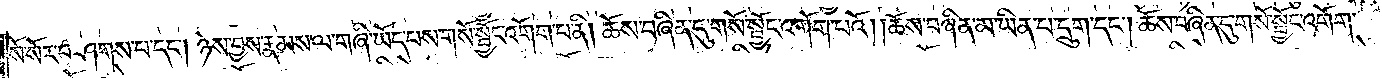སོ་སོར་བཤགས་པ་དང༌། ཉེས་བྱས་རྣམས་ལ་གཞི་ཡོད་པས་གསོ་སྦྱོང་འགོག་པ་ནི། ཆོས་བཞིན་དུ་གསོ་སྦྱོང་འགོག་པའོ། །ཆོས་བཞིན་མ་ཡིན་པ་དྲུག་དང༌། ཆོས་བཞིན་དུ་གསོ་སྦྱོང་འགོག་
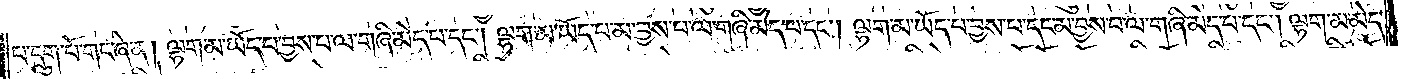པ་དྲུག་པོ་གང་ཞེ་ན། ལྷག་མ་ཡོད་པ་བྱས་པ་ལ་གཞི་མེད་པ་དང༌། ལྷག་མ་ཡོད་པ་མ་བྱས་པ་ལ་གཞི་མེད་པ་དང༌། ལྷག་མ་ཡོད་པ་བྱས་པ་དང་མ་བྱས་པ་ལ་གཞི་མེད་པ་དང༌། ལྷག་མ་མེད་
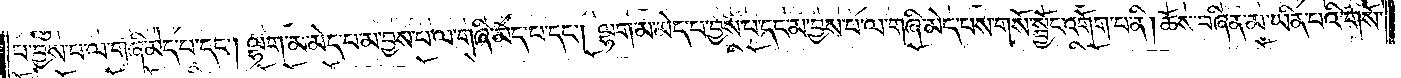པ་བྱས་པ་ལ་གཞི་མེད་པ་དང༌། ལྷག་མ་མེད་པ་མ་བྱས་པ་ལ་གཞི་མེད་པ་དང༌། ལྷག་མ་མེད་པ་བྱས་པ་དང་མ་བྱས་པ་ལ་གཞི་མེད་པས་གསོ་སྦྱོང་འགོག་པ་ནི། ཆོས་བཞིན་མ་ཡིན་པའི་གསོ་
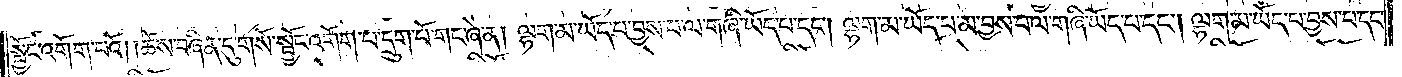སྦྱོང་འགོག་པའོ། །ཆོས་བཞིན་དུ་གསོ་སྦྱོང་འགོག་པ་དྲུག་པོ་གང་ཞེ་ན། ལྷག་མ་ཡོད་པ་བྱས་པ་ལ་གཞི་ཡོད་པ་དང༌། ལྷག་མ་ཡོད་པ་མ་བྱས་པ་ལ་གཞི་ཡོད་པ་དང༌། ལྷག་མ་ཡོད་པ་བྱས་པ་དང་
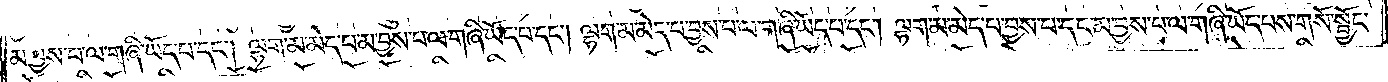མ་བྱས་པ་ལ་གཞི་ཡོད་པ་དང༌། ལྷག་མ་མེད་པ་མ་བྱས་པ་ལ་གཞི་ཡོད་པ་དང༌། ལྷག་མ་མེད་པ་བྱས་པ་ལ་གཞི་ཡོད་པ་དང༌། ལྷག་མ་མེད་པ་བྱས་པ་དང་མ་བྱས་པ་ལ་གཞི་ཡོད་པས་གསོ་སྦྱོང་
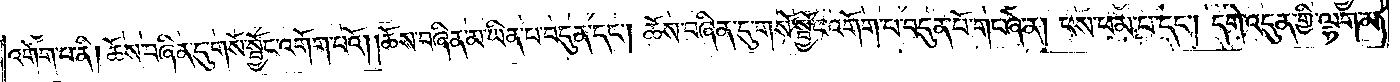འགོག་པ་ནི། ཆོས་བཞིན་དུ་གསོ་སྦྱོང་འགོག་པའོ། །ཆོས་བཞིན་མ་ཡིན་པ་བདུན་དང༌། ཆོས་བཞིན་དུ་གསོ་སྦྱོང་འགོག་པ་བདུན་པོ་གང་ཞེ་ན། ཕས་ཕམ་པ་དང༌། དགེ་འདུན་གྱི་ལྷག་མ་
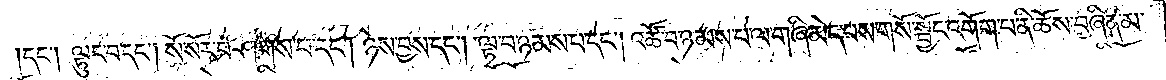དང༌། ལྟུང་བ་དང༌། སོ་སོར་བཤགས་པ་དང༌། ཉེས་བྱས་དང༌། ལྟ་བ་ཉམས་པ་དང༌། འཚོ་བ་ཉམས་པ་ལ་གཞི་མེད་པས་གསོ་སྦྱོང་འགོག་པ་ནི་ཆོས་བཞིན་མ་
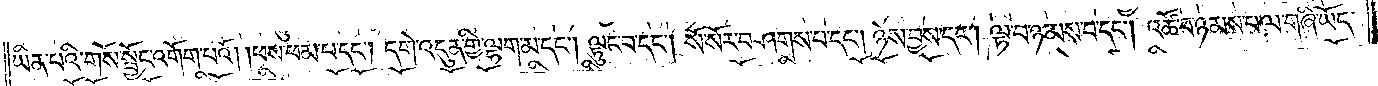ཡིན་པའི་གསོ་སྦྱོང་འགོག་པའོ། །ཕས་ཕམ་པ་དང༌། དགེ་འདུན་གྱི་ལྷག་མ་དང༌། ལྟུང་བ་དང༌། སོ་སོར་བཤགས་པ་དང༌། ཉེས་བྱས་དང༌། ལྟ་བ་ཉམས་པ་དང༌། འཚོ་བ་ཉམས་པ་ལ་གཞི་ཡོད་
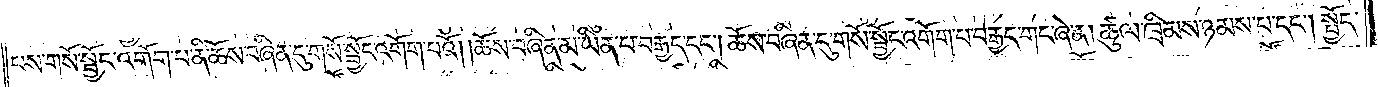པས་གསོ་སྦྱོང་འགོག་པ་ནི་ཆོས་བཞིན་དུ་གསོ་སྦྱོང་འགོག་པའོ། །ཆོས་བཞིན་མ་ཡིན་པ་བརྒྱད་དང༌། ཆོས་བཞིན་དུ་གསོ་སྦྱོང་འགོག་པ་བརྒྱད་གང་ཞེ་ན། ཚུལ་ཁྲིམས་ཉམས་པ་དང༌། སྤྱོད་
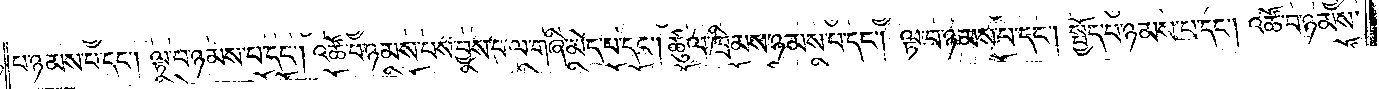པ་ཉམས་པ་དང༌། ལྟ་བ་ཉམས་པ་དང༌། འཚོ་བ་ཉམས་པས་བྱས་པ་ལ་གཞི་མེད་པ་དང༌། ཚུལ་ཁྲིམས་ཉམས་པ་དང༌། ལྟ་བ་ཉམས་པ་དང༌། སྤྱོད་པ་ཉམས་པ་དང༌། འཚོ་བ་ཉམས་
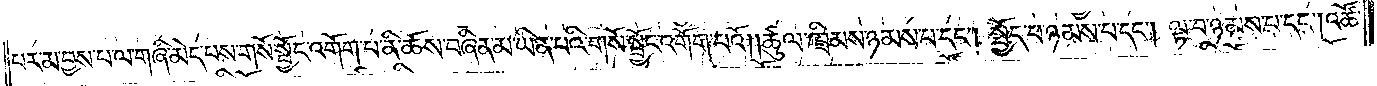པར་མ་བྱས་པ་ལ་གཞི་མེད་པས་གསོ་སྦྱོང་འགོག་པ་ནི་ཆོས་བཞིན་མ་ཡིན་པའི་གསོ་སྦྱོང་འགོག་པའོ། །ཚུལ་ཁྲིམས་ཉམས་པ་དང༌། སྤྱོད་པ་ཉམས་པ་དང༌། ལྟ་བ་ཉམས་པ་དང༌། འཚོ་
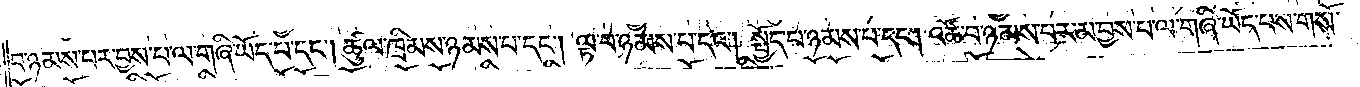བ་ཉམས་པར་བྱས་པ་ལ་གཞི་ཡོད་པ་དང༌། ཚུལ་ཁྲིམས་ཉམས་པ་དང༌། ལྟ་བ་ཉམས་པ་དང༌། སྤྱོད་པ་ཉམས་པ་དང༌། འཚོ་བ་ཉམས་པར་མ་བྱས་པ་ལ་གཞི་ཡོད་པས་གསོ་
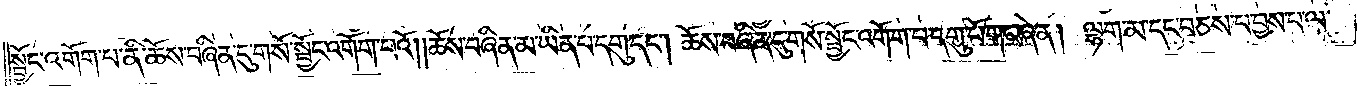སྦྱོང་འགོག་པ་ནི་ཆོས་བཞིན་དུ་གསོ་སྦྱོང་འགོག་བའོ། །ཆོས་བཞིན་མ་ཡིན་པ་དགུ་དང༌། ཆོས་བཞིན་དུ་གསོ་སྦྱོང་འགོག་པ་དགུ་པོ་གང་ཞེ་ན། ལྷག་མ་དང་བཅས་པ་བྱས་པ་ལ་
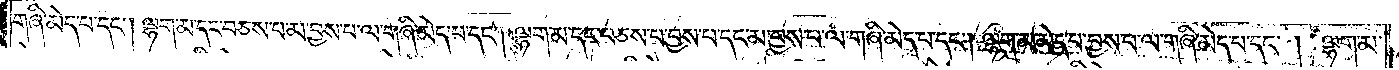གཞི་མེད་པ་དང༌། ལྷག་མ་དང་བཅས་པ་མ་བྱས་པ་ལ་གཞི་མེད་པ་དང༌། ལྷག་མ་དང་བཅས་པ་བྱས་པ་དང་མ་བྱས་པ་ལ་གཞི་མེད་པ་དང༌། ལྷག་མ་མེད་པ་བྱས་པ་ལ་གཞི་མེད་པ་དང༌། ལྷག་མ་
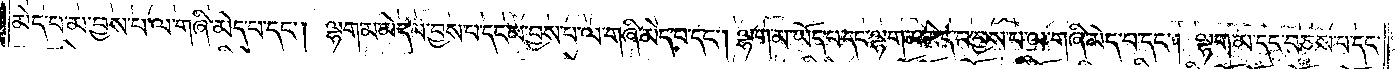མེད་པ་མ་བྱས་པ་ལ་གཞི་མེད་པ་དང༌། ལྷག་མ་མེད་པ་བྱས་པ་དང་མ་བྱས་པ་ལ་གཞི་མེད་པ་དང༌། ལྷག་མ་ཡོད་པ་དང་ལྷག་མ་མེད་པ་བྱས་པ་ལ་གཞི་མེད་པ་དང༌། ལྷག་མ་དང་བཅས་པ་དང་
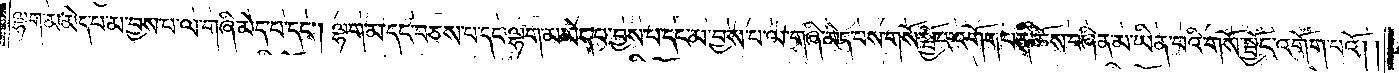ལྷག་མ་མེད་པ་མ་བྱས་པ་ལ་གཞི་མེད་པ་དང༌། ལྷག་མ་དང་བཅས་པ་དང་ལྷག་མ་མེད་པ་བྱས་པ་དང་མ་བྱས་པ་ལ་གཞི་མེད་པས་གསོ་སྦྱོང་འགོག་པ་ནི་ཆོས་བཞིན་མ་ཡིན་པའི་གསོ་སྦྱོང་འགོག་པའོ། །
